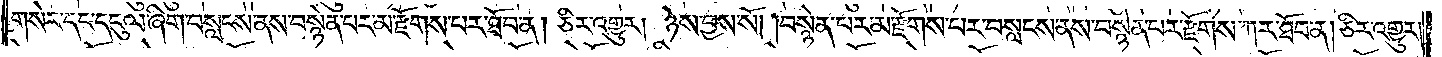གསེར་དང་དངུལ་ཞིག་བསླངས་ནས་བསྙེན་པར་མ་རྫོགས་པར་ཐོབ་ན། ཅིར་འགྱུར། ཉེས་བྱས་སོ། །བསྙེན་པར་མ་རྫོགས་པར་བསླངས་ནས་བསྙེན་པར་རྫོགས་ཀར་ཐོབ་ན། ཅིར་འགྱུར།
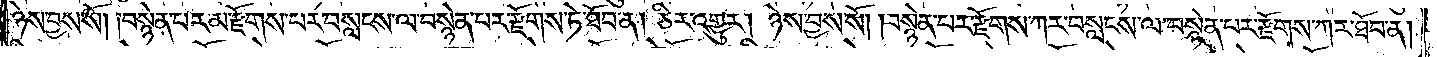ཉེས་བྱས་སོ། །བསྙེན་པར་མ་རྫོགས་པར་བསླངས་ལ་བསྙེན་པར་རྫོགས་ཏེ་ཐོབ་ན། ཅིར་འགྱུར། ཉེས་བྱས་སོ། །བསྙེན་པར་རྫོགས་ཀར་བསླངས་ལ་བསྙེན་པར་རྫོགས་ཀར་ཐོབ་ན།
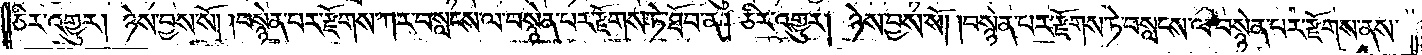ཅིར་འགྱུར། ཉེས་བྱས་སོ། །བསྙེན་པར་རྫོགས་ཀར་བསླངས་ལ་བསྙེན་པར་རྫོགས་ཏེ་ཐོབ་ན། ཅིར་འགྱུར། ཉེས་བྱས་སོ། །བསྙེན་པར་རྫོགས་ཏེ་བསླངས་ལ་བསྙེན་པར་རྫོགས་ནས་
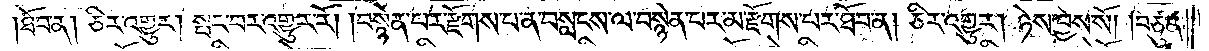ཐོབ་ན། ཅིར་འགྱུར། སྤང་བར་འགྱུར་རོ། །བསྙེན་པར་རྫོགས་པ་ན་བསླངས་ལ་བསྙེན་པར་མ་རྫོགས་པར་ཐོབ་ན། ཅིར་འགྱུར། ཉེས་བྱས་སོ། །བཙུན་
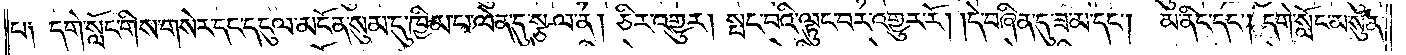པ༑ དགེ་སློང་གིས་གསེར་དང་དངུལ་མངོན་སུམ་དུ་ཁྱིམ་པ་ལེན་དུ་སྩལ་ན། ཅིར་འགྱུར། སྤང་བའི་ལྟུང་བར་འགྱུར་རོ། །དེ་བཞིན་དུ་ཟ་མ་དང༌། མ་ནིང་དང༌། དགེ་སློང་མ་སུན་
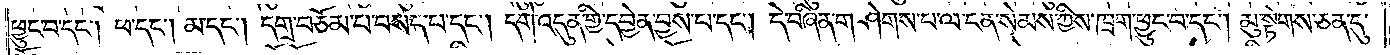ཕྱུང་བ་དང༌། ཕ་དང༌། མ་དང༌། དགྲ་བཅོམ་པ་བསད་པ་དང༌། དགེ་འདུན་གྱི་དབྱེན་བྱས་པ་དང༌། དེ་བཞིན་གཤེགས་པ་ལ་ངན་སེམས་ཀྱིས་ཁྲག་ཕྱུང་བ་དང༌། མུ་སྟེགས་ཅན་དུ་
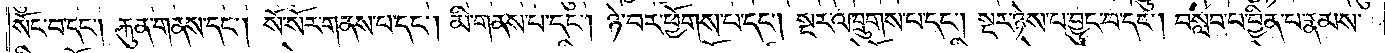སོང་བ་དང༌། རྐུན་གནས་དང༌། སོ་སོར་གནས་པ་དང༌། མི་གནས་པ་དང༌། ཉེ་བར་ཕྱོགས་པ་དང༌། སྔར་འཁྲུགས་པ་དང༌། སྔར་ཉེས་པ་བྱུང་བ་དང༌། བསླབ་པ་བྱིན་པ་རྣམས་
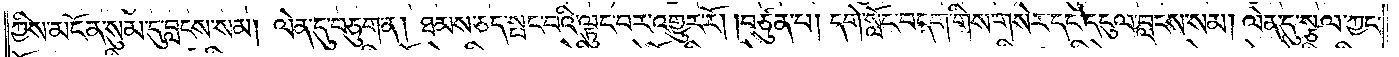ཀྱིས་མངོན་སུམ་དུ་བླངས་སམ། ལེན་དུ་བཅུག་ན། ཐམས་ཅད་སྤང་བའི་ལྟུང་བར་འགྱུར་རོ། །བཙུན་པ། དགེ་སློང་བདག་གིས་གསེར་དང་དངུལ་བླངས་སམ། ལེན་དུ་སྩལ་ཀྱང་
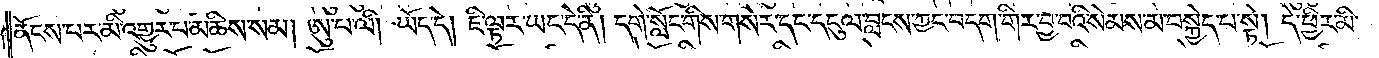ནོངས་པར་མི་འགྱུར་པ་མཆིས་སམ། ཨུ་པ་ལི། ཡོད་དེ། ཇི་ལྟར་ཡང་དེ་ནི། དགེ་སློང་གི་གསེར་དང་དངུལ་བླངས་ཀྱང་བདག་གིར་བྱ་བའི་སེམས་མ་བསྐྱེད་པ་སྟེ། དེ་ཕྱིར་མི་
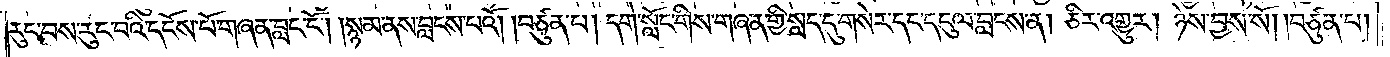རུང་བས་རུང་བའི་དངོས་པོ་གཞན་བླང་ངོ༌། །སྙམ་ནས་བླངས་པའོ། །བཙུན་པ། དགེ་སློང་གིས་གཞན་གྱི་སླད་དུ་གསེར་དང་དངུལ་བླངས་ན། ཅིར་འགྱུར། ཉེས་བྱས་སོ། །བཙུན་པ།
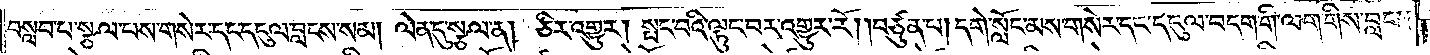བསླབ་པ་སྩལ་པས་གསེར་དང་དངུལ་བླངས་སམ། ལེན་དུ་སྩལ་ན། ཅིར་འགྱུར། སྤང་བའི་ལྟུང་བར་འགྱུར་རོ། །བཙུན་པ། དགེ་སློང་མས་གསེར་དང་དངུལ་བདག་གི་ལག་གིས་བླངས་
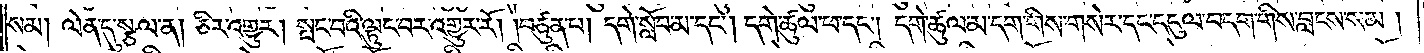སམ། ལེན་དུ་སྩལ་ན། ཅིར་འགྱུར། སྤང་བའི་ལྟུང་བར་འགྱུར་རོ། །བཙུན་པ། དགེ་སློབ་མ་དང༌། དགེ་ཚུལ་ཕ་དང༌། དགེ་ཚུལ་མ་དག་གིས་གསེར་དང་དངུལ་བདག་གིས་བླངས་སམ།
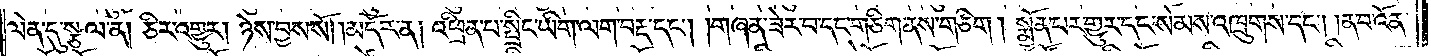ལེན་དུ་སྩལ་ན། ཅིར་འགྱུར། ཉེས་བྱས་སོ།    །མདོར་ན། འཕྲིན་པ་སྤྲིང་ཡིག་ལག་བརྡ་དང༌། །གཞན་ཟེར་བ་དང་གཅིག་ནས་གཅིག །སྨྱོན་པར་གྱུར་དང་སེམས་འཁྲུགས་དང༌། །ན་བ་འོན་
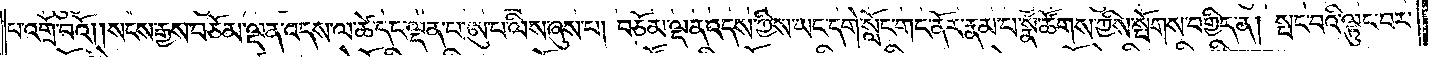པ་འགྲོ་བའོ། །སངས་རྒྱས་བཅོམ་ལྡན་འདས་ལ་ཚེ་དང་ལྡན་པ་ཨུ་པ་ལིས་ཞུས་པ། བཅོམ་ལྡན་འདས་ཀྱིས་ཡང་དགེ་སློང་གང་ནོར་རྣམ་པ་སྣ་ཚོགས་ཀྱིས་སྤོགས་བགྱིད་ན། སྤང་བའི་ལྟུང་བར་
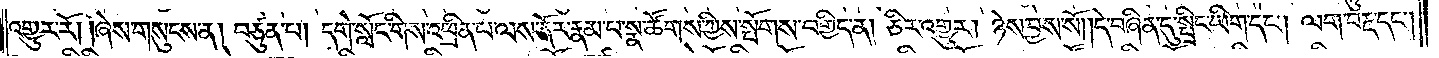འགྱུར་རོ། །ཞེས་གསུངས་ན། བཙུན་པ། དགེ་སློང་གིས་འཕྲིན་པ་ལས་ནོར་རྣམ་པ་སྣ་ཚོགས་ཀྱིས་སྤོགས་བགྱིད་ན། ཅིར་འགྱུར། ཉེས་བྱས་སོ། །དེ་བཞིན་དུ་སྤྲིང་ཡིག་དང༌། ལག་བརྡ་དང༌།
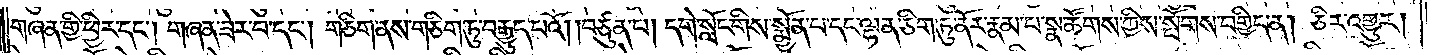གཞན་གྱི་ཕྱིར་དང༌། གཞན་ཟེར་བ་དང༌། གཅིག་ནས་གཅིག་ཏུ་བརྒྱུད་པའོ། །བཙུན་པ། དགེ་སློང་གིས་སྨྱོན་པ་དང་ལྷན་ཅིག་ཏུ་ནོར་རྣམ་པ་སྣ་ཚོགས་ཀྱིས་སྤོགས་བགྱིད་ན། ཅིར་འགྱུར།
